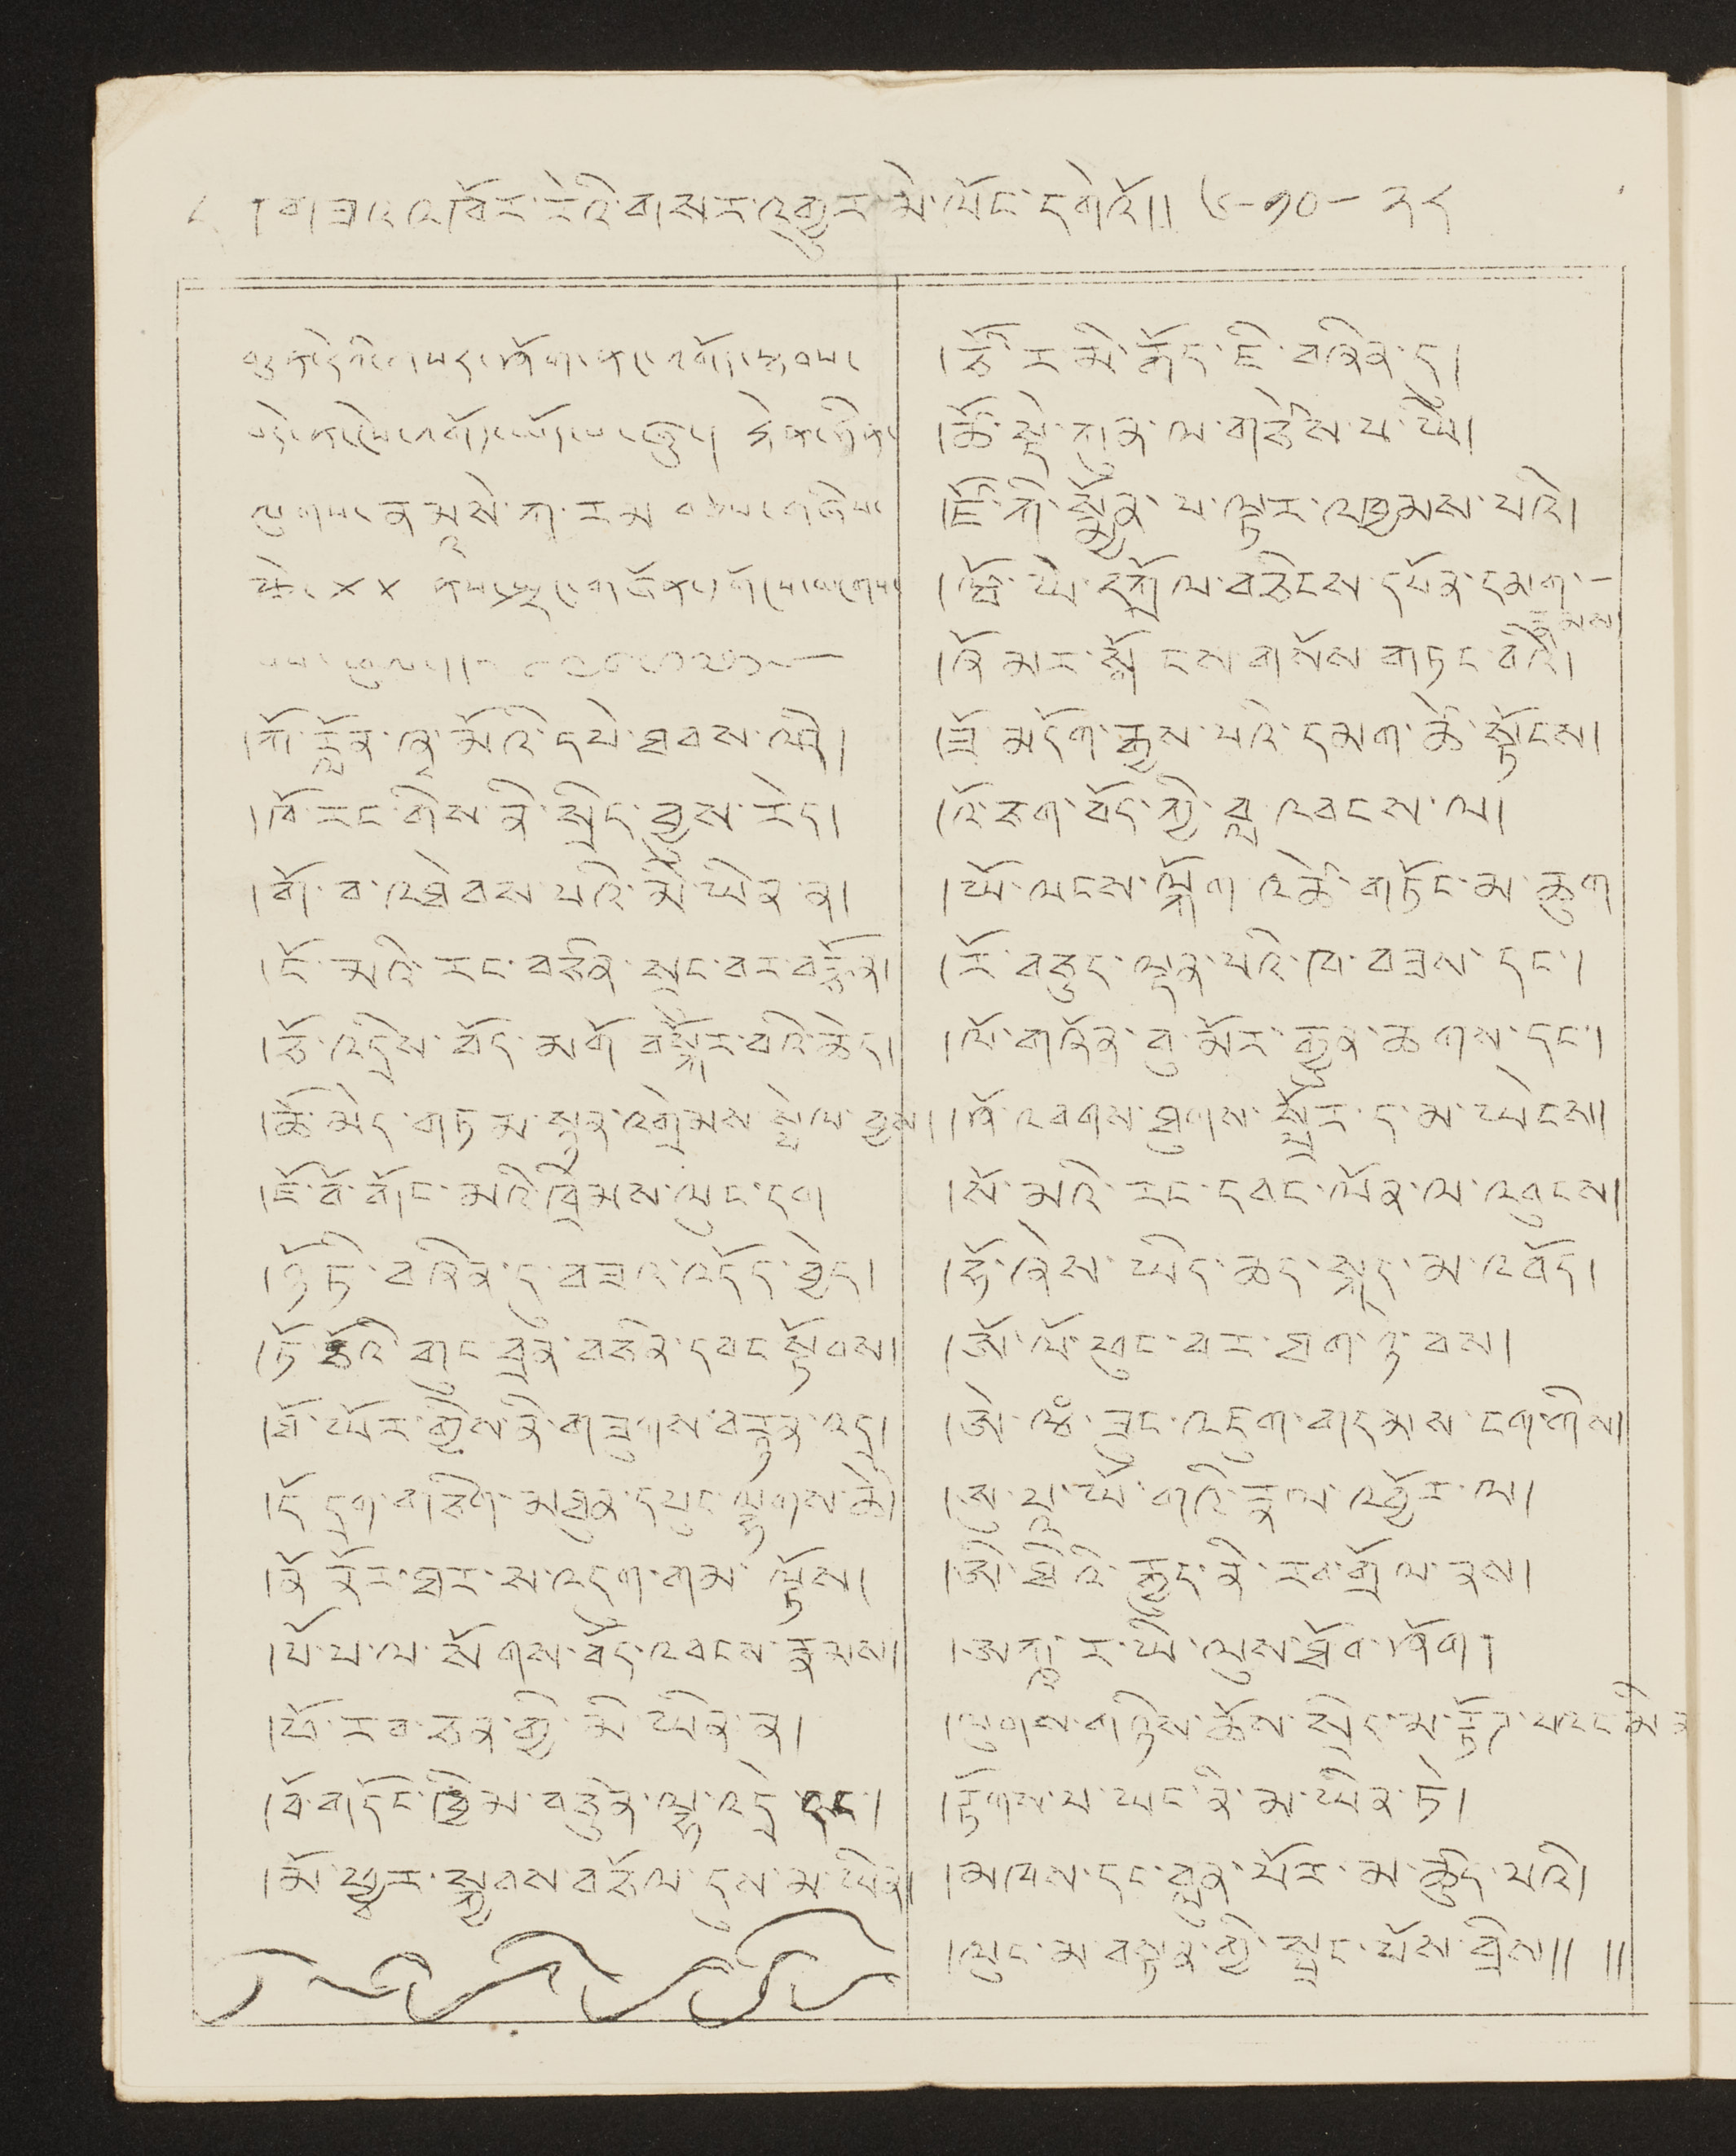༨ ། གཟའ་འཁོར་རེའི་གསར་འགྱུར་མེ་ལོང་དགེའོ།། ༦-༡༠-༢༨
བདུན་རེའི་གསར་ཤོག་ནང་འགོད་སྟབས་
བདེ་ན་ངེས་འགོད་ཡོད་པ་ཞུ། རྟེན་ཧིན་
ལུགས་ནམྰསེ་ཀ་རམ བཅས་གཞིས་
རྩེ་ xx ནས་སྤྲང་གཞོན་དགོངས་མངགས་
པས་ཕུལ།།
།ཀོ་རློན་ཞྭ་མོའི་དཔེ་ཐབས་ལའི།
།ཁོ་རང་གིས་ནི་སྲིད་བྱུས་རེད།
།གོ་བ་འཐེབས་པའི་མི་ཡིན་ན།
།ངོ་མའི་རང་བཙན་སྲང་བར་བརྩོན།
།ཅོ་འདྲེས་བོད་མགོ བསྐོར་བའི་ཆེད།
།ཚོ་མེད་གཏམ་སྙན་འགྲེམས་སྤེལ་བྱས།
།ཇོ་བོ་གོང་མའི་ཁྲིམས་ལུང་དག
།ཉོ་ཏི་བཞིན་དུ་བཟང་འདོད་བྱེད།
།ཏོ་རྩོཨའི་གུང་བྲན་བཅིན་དབང་སྟོབས།
།ཐོ་ཡོར་གྱིས་ནི་གཟུགས་བརྙན་འདྲ།
།དོ་དྲག་གཅིག་མཐུན་དཔུང་ལྷགས་མེ་
།ནོ རོལ་ཐར་ས་འདུག་གམ་ལྟོས།
།པོ་པ་ལ་སོགས་བོད་འབངས་རྣམས།
།ཕོ་རབ་ཅན་གྱི་མི་ཡིན་ན།
།ཁོ་གདོང་ཁྱིམ་བཅིུན་ལྷ་འདྲེ་དང་།
།མོ་ཕྱྭར་སྐྱབས་མཅོལ་དུས་མ་ཡིན།
།རྩོ་ར་མི་རྒོད་ཇི་བཞིན་དུ།
།ཚོ་སྡེ་ཀུན་ལ་གརྩེས་པ་ཡི།
།ཛོ་ཀི་སྨྱོན་པ་ལྟར་འཁྱམས་པའི།
།ཝོ་ཡེ་དཀྲོལ་བཅིངས་དཔོན་དམག་—
རྣམས།
།ཞོ མར་སྒོངས་གསོལ་གཏང་བའཻ།
(ཟོ་མདོག་རྒྱས་པའི་དམག་ཚེ་སྟོངས།
(འོ་ཅག་བོད་ཀྱི་བླ་འབངས་ལ།
།ཡོ་ལངས་ལྐོག་འཚེ་གཏོང་མ་ཆུག
(རོ་བཅུད་ལྡན་པའི་ཁ་བཟས་དང་།
།ལོ་གཞོན་བུ་མོར་རྒྱུན་ཆགས་དང་།
།ཤོ་འབགས་ཐུགས་སྤྲོར་ད་མ་ཡེངས།
།སོ་མའི་རང་དབང་ལོན་ལ་འབུངས།
།ཧོ་ཞེས་ཡིད་ཆད་སྐདུ་མ་འབོད།
།ཨོ་ལོ་ཕུང་བར་ཐག་ཉེ་བས།
།ཨེ་ལཾ་ཟུང་འཇུག་གདམས་ངག་གིས།
།ཨུ་པྰ་ཡོ་གའི་རྣམ་འབྱོར་ལ།
།ཨི་ཐིའི་རྒྱུད་ནི་རང་གྲོལ་ནས།
།ཨཀྰ་ར་ཡི་ལུས་ཐོབ་ཤོག།།
།ལུགས་གཉིས་ཆོས་སྲིད་མ་རྟོཌ་པའང་མིན
།རྟོགས་པ་ཡང་ནི་མ་ཡིན་ཏེ།
།མཁས་དང་བླུན་པོར་མ་ཚུད་པའི།
།ལུང་མ་བསྟན་གྱི་སྤྲང་པོས་བྲིས།། །།
